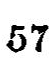57
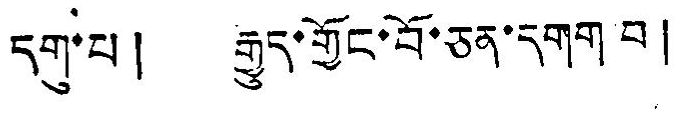དགུ་པ། རྒྱུད་གྱོང་བོ་ཅན་དགག་བ།
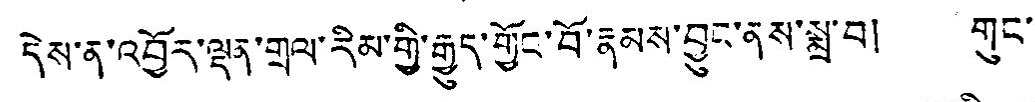དེས་ན་འབྱོར་ལྡན་གྲལ་རིམ་གྱི་རྒྱུད་གྱོང་བོ་རྣམས་བྱུད་ནས་སྨྲ་བ། གུང་
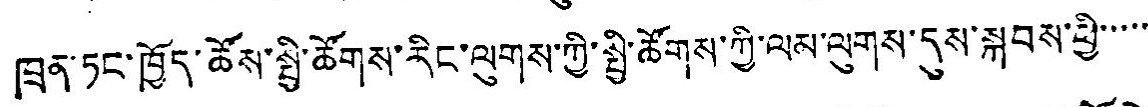ཁྲན་ཏང་ཁྱོད་ཚོས་སྤྱི་ཚོགས་རིང་ལུགས་ཀྱི་སྤྱི་ཚོགས་ཀྱི་ལམ་ལུགས་དུས་སྐབས་ཕྱི་་་་་
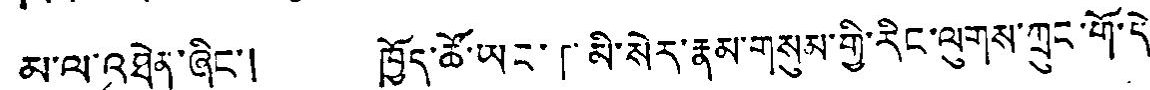མ་ལ་འཐེན་ཞིང་། ཁྱོད་ཚོ་ཡང་「མི་སེར་རྣམ་གསུལ་གྱི་རིང་ལུགས་ཀྲུང་གོ་དེ་
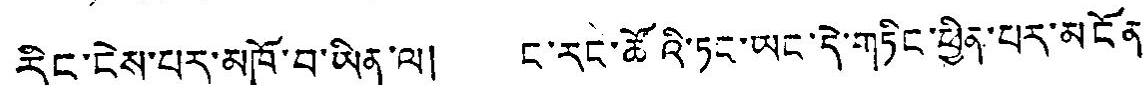རིང་ངེས་པར་མཁོ་བ་ཡིན་ལ། ང་རང་ཚོའི་ཏང་ཡང་དེ་གཏིང་ཕྱིན་པར་མངོན་
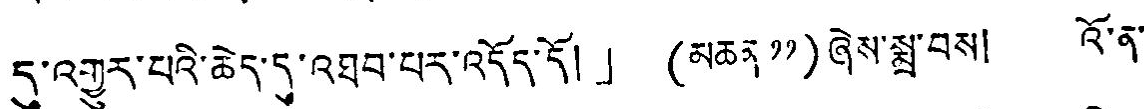དུ་འགྱུར་པའི་ཆེད་དུ་འཐབ་པར་འདོད་དོ། ། (མཆན ༡༡)ཞེས་སྨྲ་བས། འོ་ན་
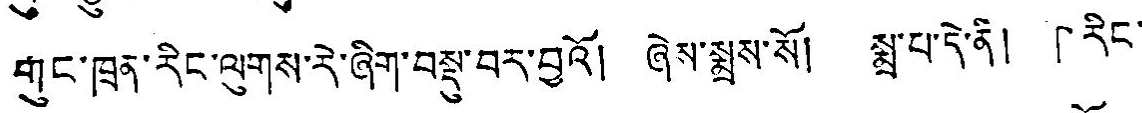གུང་ཁྲན་རིང་ལུགས་རེ་ཞིག་བསྡུ་བར་བྱའོ། ཞེས་སྨྲས་སོ། སྨྲ་པ་དེ་ནི། 「རིང་
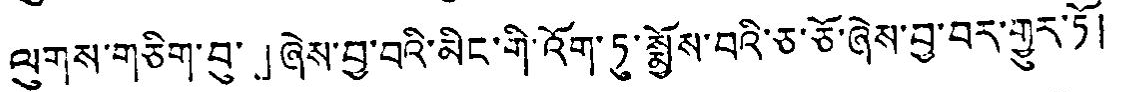ལུགས་གཅིག་བུ་」ཞེས་བྱས་བའི་མིང་གི་འོག་ཏུ་སྨྱོས་བའི་ཅ་ཅོ་ཞེས་བྱ་བར་གྱུར་ཏོ།
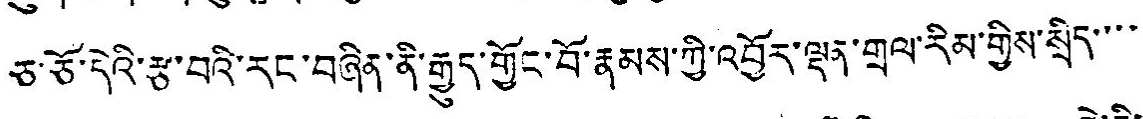ཅ་ཅོ་དེའི་རྩ་བའི་རང་བཞིན་ནི་རྒྱུད་གྱོང་བོ་རྣམས་ཀྱི་འབྱོར་ལྡན་གྲལ་རིམ་གྱིས་སྲིད་་་་
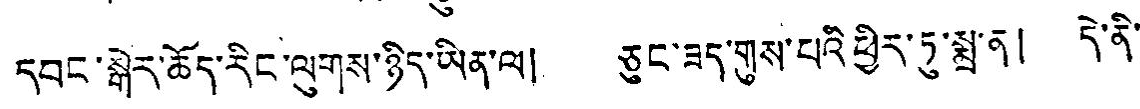དབང་སྒེར་ཆོད་རིང་ལུགས་ཉིད་ཡིན་ལ། ཅུང་ཟད་གུས་པའི་ཕྱིར་ཏུ་སྨྲ་ན། དེ་ནི་
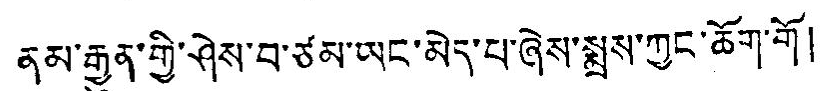ནམ་རྒྱན་གྱི་ཤེས་བ་ཙམ་ཡང་མེད་པ་ཞེས་སྨྲས་ཀྱང་ཆོག་གོ།
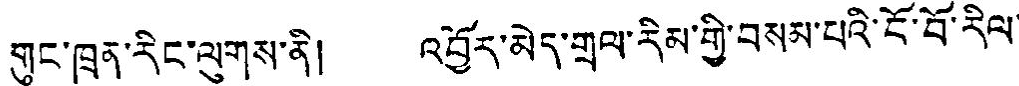གུང་ཁྲན་རིང་ལུགས་ནི། འབྱོར་མེད་གྲལ་རིམ་གྱི་བསམ་པའི་ངོ་བོ་རིལ་
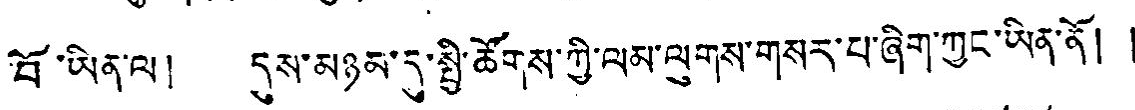བོ་ཡིན་ལ། དུས་མཉམ་དུ་སྤྱི་ཚོགས་ཀྱི་ལམ་ལུགས་གསར་པ་ཞིག་ཀྱང་ཡིན་ནོ། །
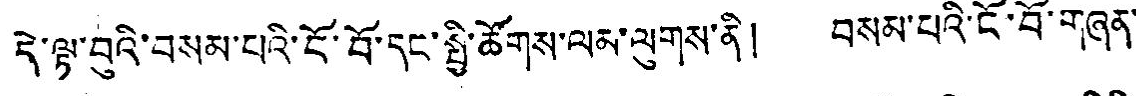དེ་ལྟ་བུའི་བསམ་པའི་ངོ་བོ་དང་སྤྱི་ཚོགས་ལམ་ལུགས་ནི ། བསམ་པའི་ངོ་བོ་གཞན་
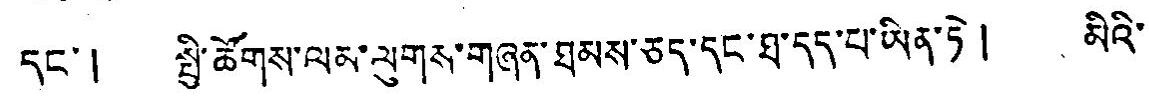དང་། སྤྱི་ཚོགས་ལམ་ལུགས་གཞན་ཐམས་ཅད་དང་ཐུ་དད་པ་ཡིན་ཏེ། མིའི་
